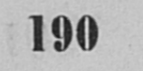190
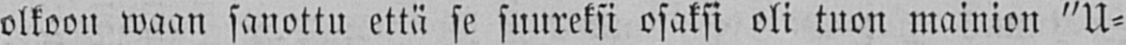olkoon waan sanottu että se suureksi osaksi oli tuon mainion "U-
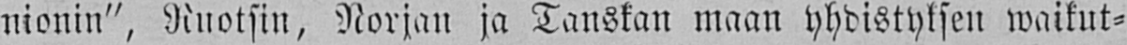nionin", Ruotsin, Norjan ja Tanskan maan yhdistyksen waikut-
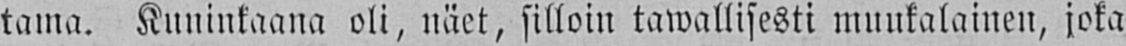tama. Kuninkaana oli, näet, silloin tawallisesti muukalainen, joka
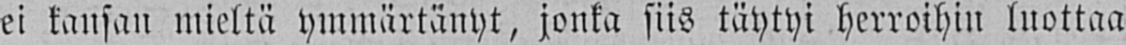ei kansan mieltä ymmärtänyt, jonka siis täytyi herroihin luottaa
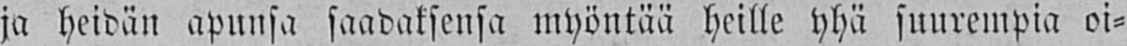ja heidän apunsa saaduksensa myöntää heille yhä suurempia oi-
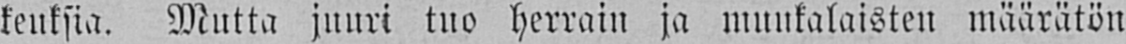keuksia. Mutta juuri tuo herrain ja muukalaisten määrätön
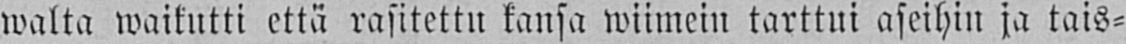walta waikutti että rasitettu kansa wiimein tarttui aseihin ja tais-
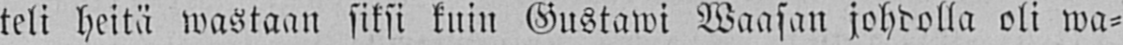teli heitä wastaan siksi kuin Gustawi Waasan johdolla oli wa-
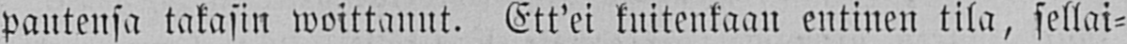pautensa takasin woittanut. Ett'ei kuitenkaan entinen tila, sellai-
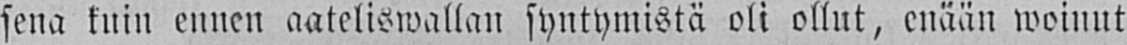sena kuin ennen aateliswallan syntymistä oli ollut, enään woinut
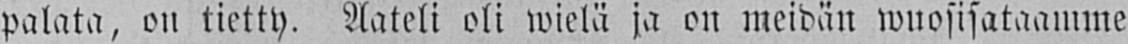palata, on tietty. Aateli oli wielä ja on meidän wuosisataamme
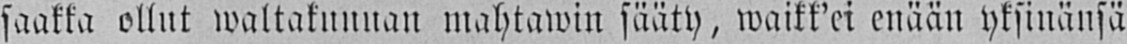saakka ollut waltakunnan mahtawin sääty, waikk'ei enään yksinänsä
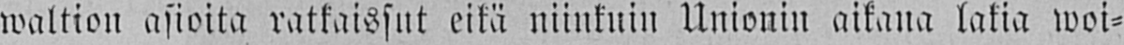waltion asioita ratkaissut eikä niinkuin Unionin aikana lakia woi-
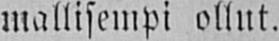mallisempi ollut.
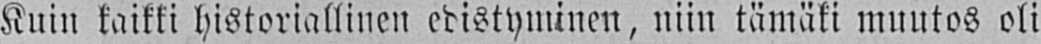Kuin kaikki historiallinen edistyminen, niin tämäki muutos oli
